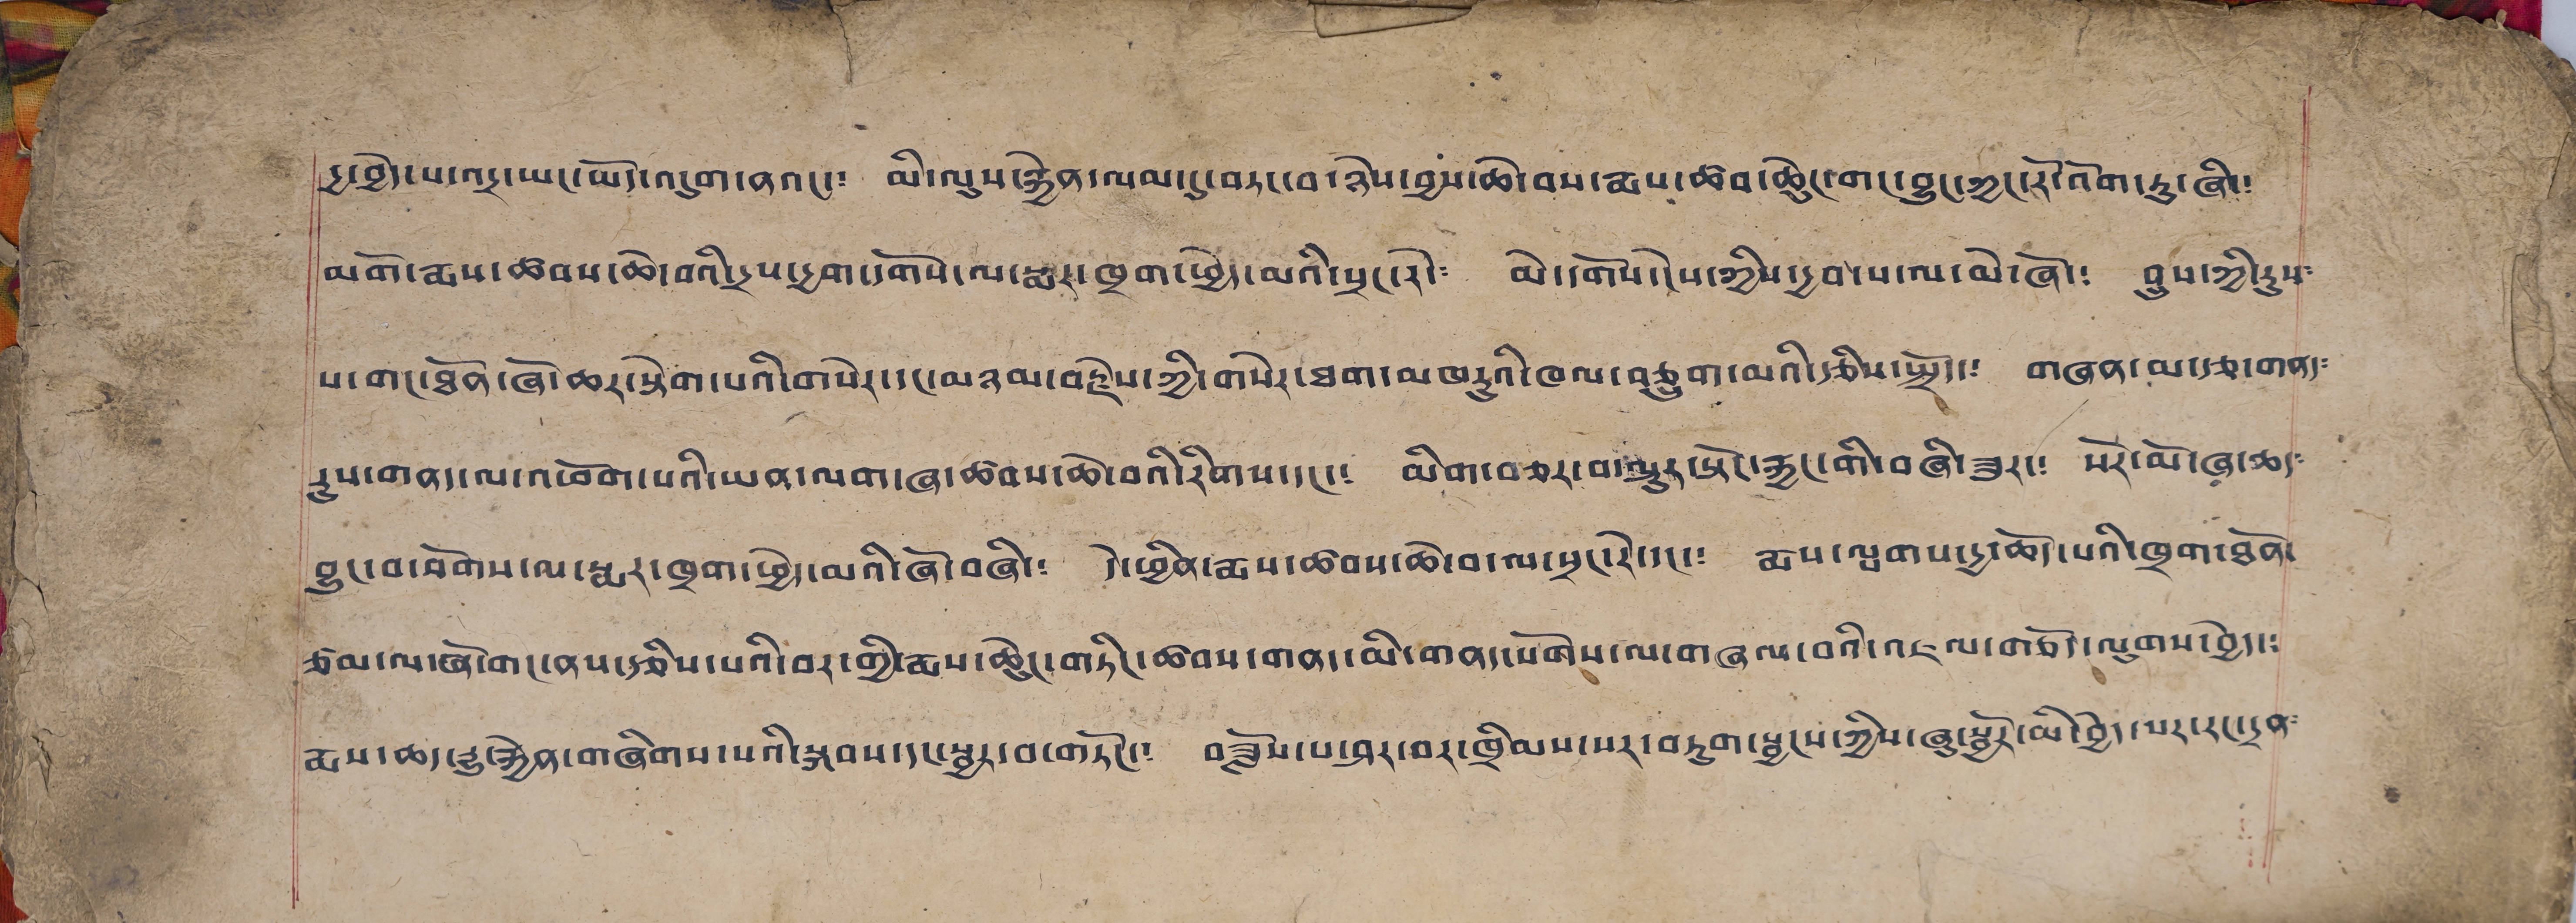དྱ་བྱེད་པ་འདྲ་ཡང་ཡོད་འདུག་ནའང་༴ མི་ལུས་རྐྱེན་ལམ་དུ་བཏང་བ་ཉེས་བྱས་ཆེ་བས་རྨས་ཚབ་ཆེུང་གང་བྱུང་ཀྱང་རོ་འོག་ཏུ་ཞི༴
མགོ་རྨས་ཚབས་ཆེ་བའི་གྲས་དྱག་དགོས་ལ་སྨར་ཁྲག་ཕྱེད་མའི་སྲང་རེ་༴ མེ་དགོས་ངེས་ཀྱིས་དྱབ་པ་ལ་མེ་ཞོ་༴ བྲུས་ཀྱི་རུ༴
པ་གང་ཐོན་ཁོ་ཆར་སྟེག་པའི་གསེར་དང་མཉམ་བརྗེས་ཀྱི་གསེར་ཐག་མཁརུའི་ཁལ་བཅུ་དྲུག་མའི་རྩིས་སྤྲོད་༴ གཞན་མ་རྩ་གནད༴
རུས་གནད་ལ་འཕོག་པའི་ཡན་ལག་ཞ་ཚབས་ཆེ་བའི་རིགས་དང་༴ མིག་བཅར་བ་ལྷུར་སྟོང་རྐྱང་གི་བཞི་ཟུར་༴ སོར་མོ་ཞ་ཆད༴
བྱུང་བ་བོགས་ལ་སྨར་ཁྲག་ཕྱེད་མའི་ཞོ་བཞི་༴ དེ་ཕྱིན་རྨས་ཚབས་ཆེ་བ་ལ་སྲང་རེ་དང་༴ རྨས་ལྤགས་དྱ་ཆོད་པའི་ཁྲག་ཐོན་
ཙམ་ལ་ཞོ་གང་ནས་རྩིས་པའི་བར་གྱི་རྨས་ཆེུང་གཏིང་ཚབས་གནད་མི་གནད་སོགས་ལ་གཞལ་བའི་འཇལ་གཅོད་ལུགས་བྱེད་༴
རྨས་ཆད་རྒྱུ་རྐྱེན་གཞིགས་པའི་སྐབས་དང་སྦྱར་བ་གཏོང་༴ བཟློས་པ་ཤར་བར་ཁྲིམས་སར་བཏུག་སྦྱངས་ཀྱིས་ཞུ་སྦྱོར་མི་བྱེད་པར་རང་དྲན༴
